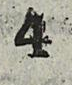4
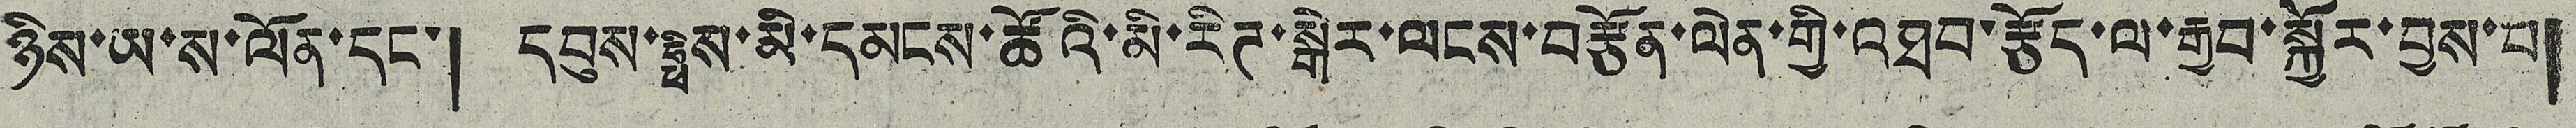ཉིས་ཡ་ས་ལོན་དང་། དབུས་ཧྥིས་མི་དམངས་ཚོའི་མི་རིཊ་སྒེར་ལངས་བརྩོན་ལེན་གྱི་འཐབ་རྩོད་ལ་རྒྱབ་སྐྱོར་བྱས་པ།
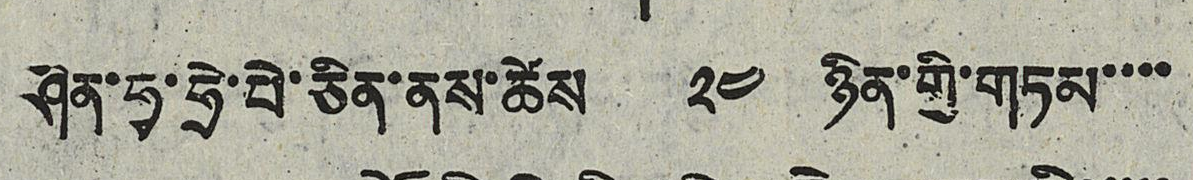ཤིན་ཧྭ་ཧྲེ་པེ་ཅིན་ནས་ཚེས ༢༤ ཉིན་གྱི་གཏམ་་་་
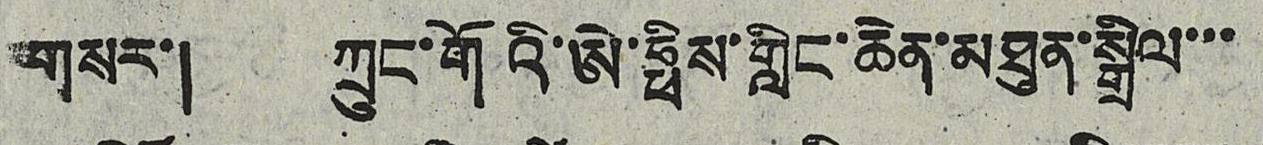གསར་། ཀྲུང་གོའི་ཨེ་ཧྥིས་གླིང་ཆེན་མཐུན་སྒྲིལ་་་
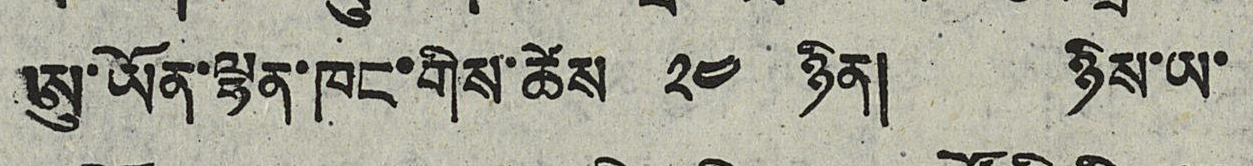ཨུ་ཡོན་ལྷན་ཁང་གིས་ཚེས ༢༤ ཉིན། ཉིས་ཡ་
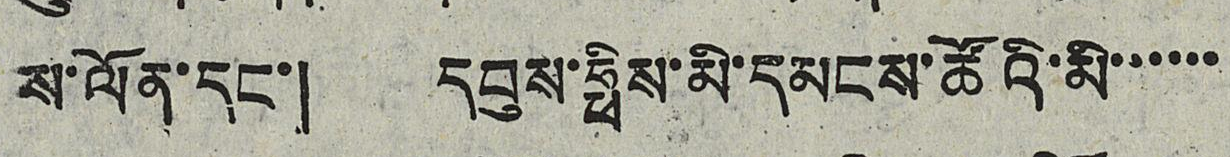ས་ལོན་དང་། དབུས་ཧྥིས་མི་དམངས་ཚོའི་མི་་་་་་
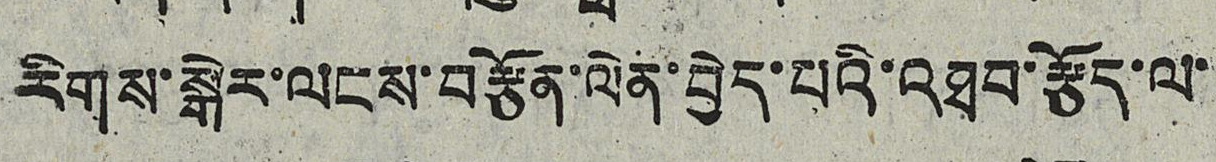རིགས་སྒེར་ལངས་བརྩོན་ལེན་བྱེད་པའི་འཐབ་རྩོད་ལ་
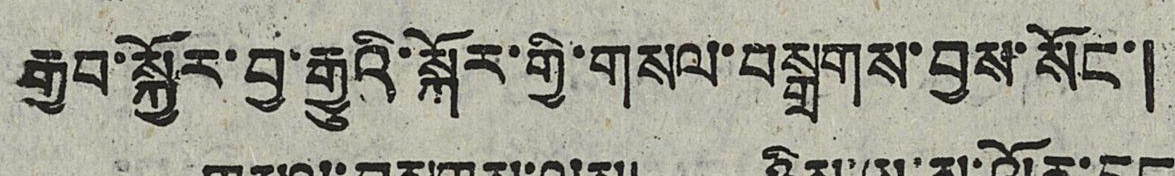རྒྱབ་སྐྱོར་བྱ་རྒྱུའི་སྐོར་གྱི་གསལ་བསྒྲགས་བྱས་སོང་།
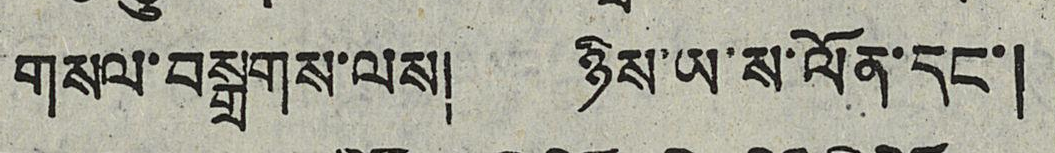གསལ་བསྒྲགས་ལས། ཉིས་ཡ་ས་ལོན་དང་།
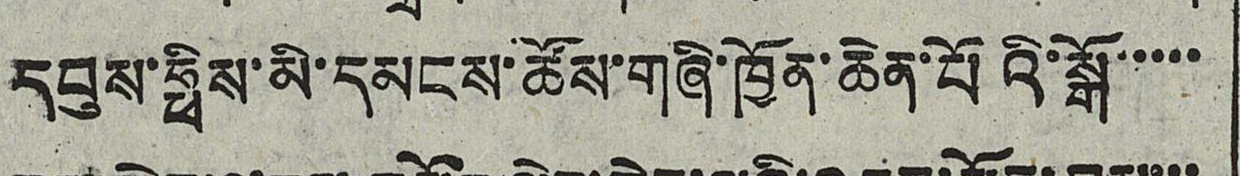དབུས་ཧྥིས་མི་དམངས་ཚོས་གཞི་ཁྱོན་ཆེན་པོའི་སྒོ་་་་་
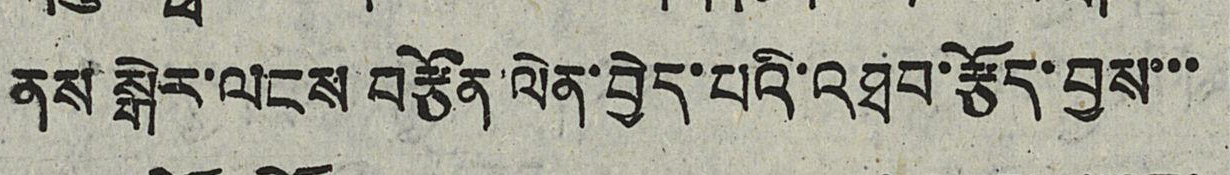ནས་སྒེར་ལངས་བརྩོན་ལེན་བྱེད་པའི་འཐབ་རྩོད་བྱས་་་
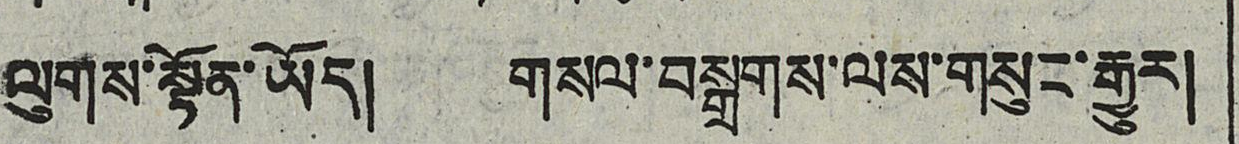ལུགས་སྟོན་ཡོད། གསལ་བསྒྲགས་ལས་གསུང་རྒྱུར།
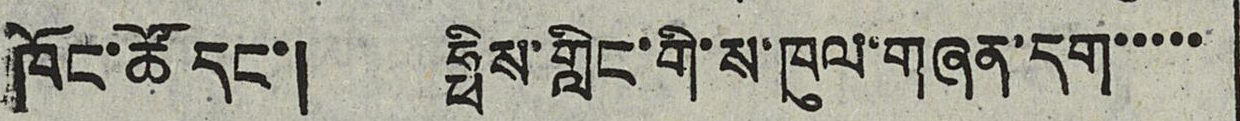ཁོང་ཚོ དང་། ཧྥིས་གླིང་གི་ས་ཁུལ་གཞན་དག་་་་་
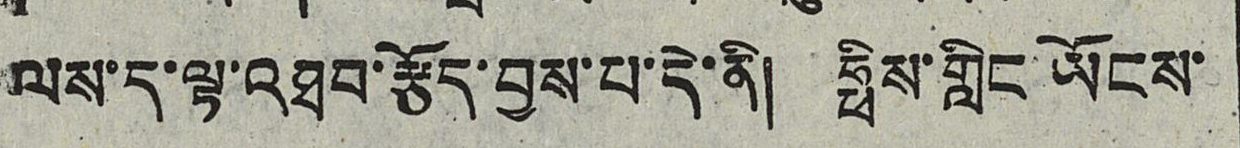ལས་ད་ལྟ་འཐབ་རྩོད་བྱས་པ་དེ་ནི། ཧྥིས་གླིང་ཡོངས་
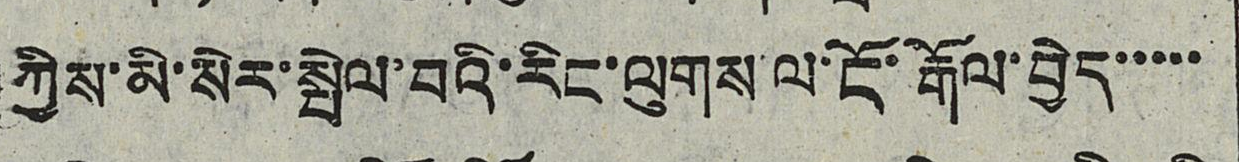ཀྱིས་མི་སེར་སྤེལ་བའི་རིང་ལུགས་ལ་ངོ་རྒོལ་བྱེད་་་་་
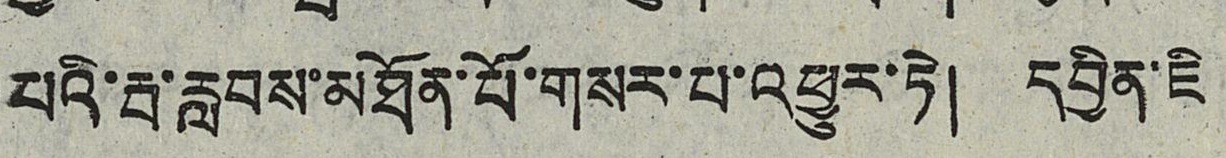པའི་རྦ་རླབས་མཐོན་པོ་གསར་པ་འཕྱུར་ཏེ། དབྱིན་ཇི
